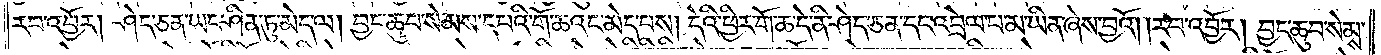རབ་འབྱོར། ཤེད་ཅན་ཡང་ཤིན་ཏུ་མེད་ལ། བྱང་ཆུབ་སེམས་དཔའི་གོ་ཆའང་མེད་པས། དེའི་ཕྱིར་གོ་ཆ་དེ་ནི་ཤེད་ཅན་དང་འབྲེལ་པ་མ་ཡིན་ཞེས་བྱའོ། །རབ་འབྱོར། བྱང་ཆུབ་སེམས་
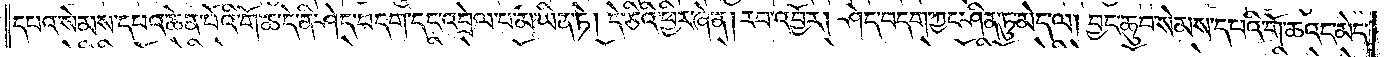དཔའ་སེམས་དཔའ་ཆེན་པོའི་གོ་ཆ་དེ་ནི་ཤེད་བདག་དང་འབྲེལ་པ་མ་ཡིན་ཏེ། དེ་ཅིའི་ཕྱིར་ཞེ་ན། རབ་འབྱོར། ཤེད་བདག་ཀྱང་ཤིན་ཏུ་མེད་ལ། བྱང་ཆུབ་སེམས་དཔའི་གོ་ཆའང་མེད་
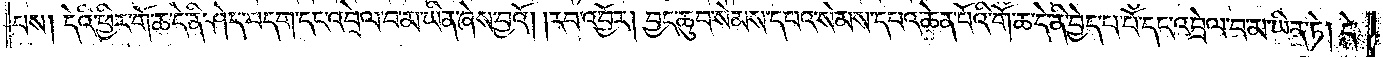པས། དེའི་ཕྱིར་གོ་ཆ་དེ་ནི་ཤེད་བདག་དང་འབྲེལ་པ་མ་ཡིན་ཞེས་བྱའོ། །རབ་འབྱོར། བྱང་ཆུབ་སེམས་དཔའ་སེམས་དཔའ་ཆེན་པོའི་གོ་ཆ་དེ་ནི་བྱེད་པ་པོ་དང་འབྲེལ་པ་མ་ཡིན་ཏེ། དེ་
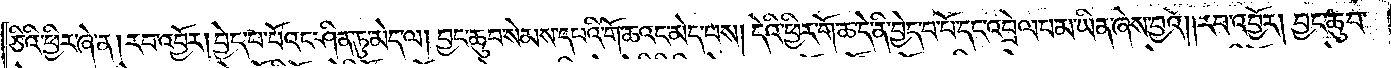ཅིའི་ཕྱིར་ཞེ་ན། རབ་འབྱོར། བྱེད་པ་པོའང་ཤིན་ཏུ་མེད་ལ། བྱང་ཆུབ་སེམས་དཔའི་གོ་ཆའང་མེད་པས། དེའི་ཕྱིར་གོ་ཆ་དེ་ནི་བྱེད་པ་པོ་དང་འབྲེལ་པ་མ་ཡིན་ཞེས་བྱའོ། །རབ་འབྱོར། བྱང་ཆུབ་
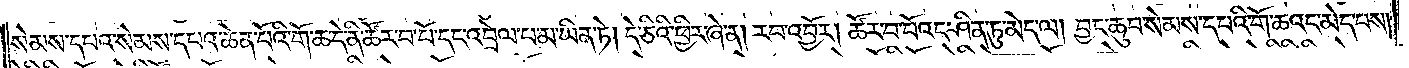སེམས་དཔའ་སེམས་དཔའ་ཆེན་པོའི་གོ་ཆ་དེ་ནི་ཚོར་བ་པོ་དང་འབྲེལ་པ་མ་ཡིན་ཏེ། དེ་ཅིའི་ཕྱིར་ཞེ་ན། རབ་འབྱོར། ཚོར་བ་པོའང་ཤིན་ཏུ་མེད་ལ། བྱང་ཆུབ་སེམས་དཔའི་གོ་ཆའང་མེད་པས།
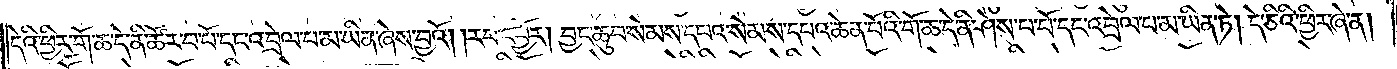དེའི་ཕྱིར་གོ་ཆ་དེ་ནི་ཚོར་བ་པོ་དང་འབྲེལ་པ་མ་ཡིན་ཞེས་བྱའོ། །རབ་འབྱོར། བྱང་ཆུབ་སེམས་དཔའ་སེམས་དཔའ་ཆེན་པོའི་གོ་ཆ་དེ་ནི་ཤེས་པ་པོ་དང་འབྲེལ་པ་མ་ཡིན་ཏེ། དེ་ཅིའི་ཕྱིར་ཞེ་ན།
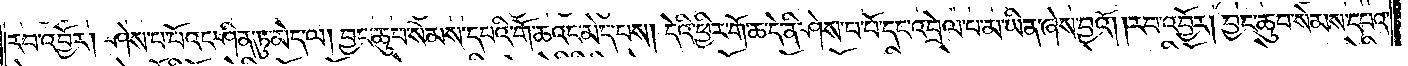རབ་འབྱོར། ཤེས་པ་པོའང་ཤིན་ཏུ་མེད་ལ། བྱང་ཆུབ་སེམས་དཔའི་གོ་ཆའང་མེད་པས། དེའི་ཕྱིར་གོ་ཆ་དེ་ནི་ཤེས་པ་པོ་དང་འབྲེལ་པ་མ་ཡིན་ཞེས་བྱའོ། །རབ་འབྱོར། བྱང་ཆུབ་སེམས་དཔའ་
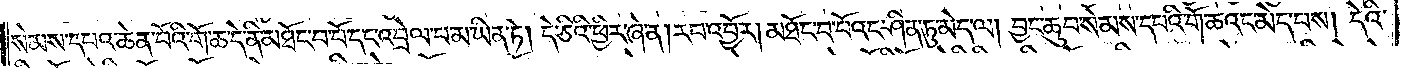སེམས་དཔའ་ཆེན་པོའི་གོ་ཆ་དེ་ནི་མཐོང་བ་པོ་དང་འབྲེལ་པ་མ་ཡིན་ཏེ། དེ་ཅིའི་ཕྱིར་ཞེ་ན། རབ་འབྱོར། མཐོང་བ་པོའང་ཤིན་ཏུ་མེད་ལ། བྱང་ཆུབ་སེམས་དཔའི་གོ་ཆའང་མེད་པས། དེའི་
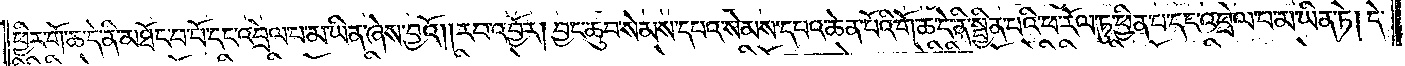ཕྱིར་གོ་ཆ་དེ་ནི་མཐོང་བ་པོ་དང་འབྲེལ་པ་མ་ཡིན་ཞེས་བྱའོ། །རབ་འབྱོར། བྱང་ཆུབ་སེམས་དཔའ་སེམས་དཔའ་ཆེན་པོའི་གོ་ཆ་དེ་ནི་སྦྱིན་པའི་ཕ་རོལ་ཏུ་ཕྱིན་པ་དང་འབྲེལ་པ་མ་ཡིན་ཏེ། དེ་
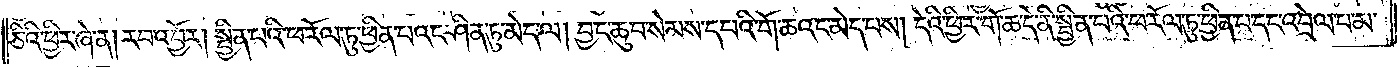ཅིའི་ཕྱིར་ཞེ་ན། རབ་འབྱོར། སྦྱིན་པའི་ཕ་རོལ་ཏུ་ཕྱིན་པའང་ཤིན་ཏུ་མེད་ལ། བྱང་ཆུབ་སེམས་དཔའི་གོ་ཆའང་མེད་པས། དེའི་ཕྱིར་གོ་ཆ་དེ་ནི་སྦྱིན་པའི་ཕ་རོལ་ཏུ་ཕྱིན་པ་དང་འབྲེལ་པ་མ་
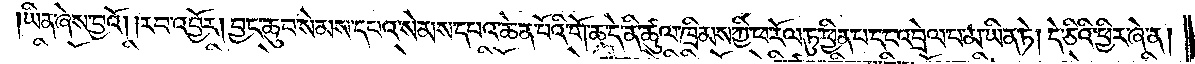ཡིན་ཞེས་བྱའོ། །རབ་འབྱོར། བྱང་ཆུབ་སེམས་དཔའ་སེམས་དཔའ་ཆེན་པོའི་གོ་ཆ་དེ་ནི་ཚུལ་ཁྲིམས་ཀྱི་ཕ་རོལ་ཏུ་ཕྱིན་པ་དང་འབྲེལ་པ་མ་ཡིན་ཏེ། དེ་ཅིའི་ཕྱིར་ཞེ་ན།
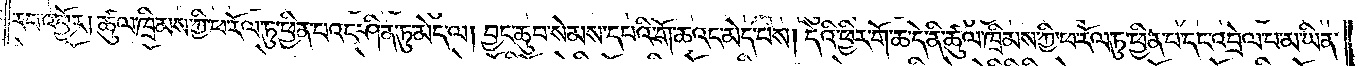རབ་འབྱོར། ཚུལ་ཁྲིམས་ཀྱི་ཕ་རོལ་ཏུ་ཕྱིན་པའང་ཤིན་ཏུ་མེད་ལ། བྱང་ཆུབ་སེམས་དཔའི་གོ་ཆའང་མེད་པས། དེའི་ཕྱིར་གོ་ཆ་དེ་ནི་ཚུལ་ཁྲིམས་ཀྱི་ཕ་རོལ་ཏུ་ཕྱིན་པ་དང་འབྲེལ་པ་མ་ཡིན་
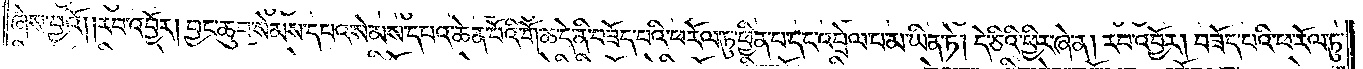ཞེས་བྱའོ། །རབ་འབྱོར། བྱང་ཆུབ་སེམས་དཔའ་སེམས་དཔའ་ཆེན་པོའི་གོ་ཆ་དེ་ནི་བཟོད་པའི་ཕ་རོལ་ཏུ་ཕྱིན་པ་དང་འབྲེལ་པ་མ་ཡིན་ཏེ། དེ་ཅིའི་ཕྱིར་ཞེ་ན། རབ་འབྱོར། བཟོད་པའི་ཕ་རོལ་ཏུ་
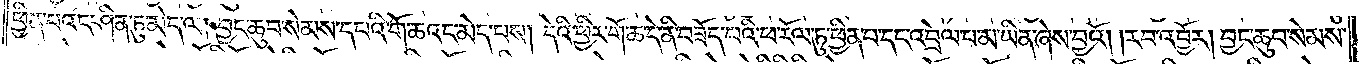ཕྱིན་པའང་ཤིན་ཏུ་མེད་ལ། བྱང་ཆུབ་སེམས་དཔའི་གོ་ཆའང་མེད་པས། དེའི་ཕྱིར་གོ་ཆ་དེ་ནི་བཟོད་པའི་ཕ་རོལ་ཏུ་ཕྱིན་པ་དང་འབྲེལ་པ་མ་ཡིན་ཞེས་བྱའོ། །རབ་འབྱོར། བྱང་ཆུབ་སེམས་
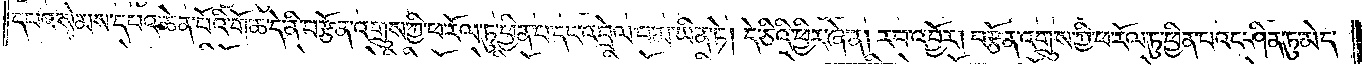དཔའ་སེམས་དཔའ་ཆེན་པོའི་གོ་ཆ་དེ་ནི་བརྩོན་འགྲུས་ཀྱི་ཕ་རོལ་ཏུ་ཕྱིན་པ་དང་འབྲེལ་པ་མ་ཡིན་ཏེ། དེ་ཅིའི་ཕྱིར་ཞེ་ན། རབ་འབྱོར། བརྩོན་འགྲུས་ཀྱི་ཕ་རོལ་ཏུ་ཕྱིན་པའང་ཤིན་ཏུ་མེད་
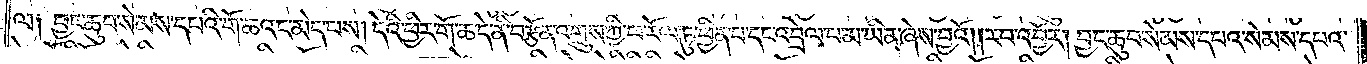ལ། བྱང་ཆུབ་སེམས་དཔའི་གོ་ཆའང་མེད་པས། དེའི་ཕྱིར་གོ་ཆ་དེ་ནི་བརྩོན་འགྲུས་ཀྱི་ཕ་རོལ་ཏུ་ཕྱིན་པ་དང་འབྲེལ་པ་མ་ཡིན་ཞེས་བྱའོ། །རབ་འབྱོར། བྱང་ཆུབ་སེམས་དཔའ་སེམས་དཔའ་
